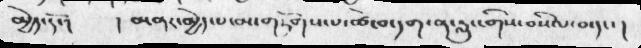མྱེད་དོ་།       ། མནར་མྱེད་པ་མ་གཏོགས་པ་ཚེ་བ་དག་ན་རླུང་གིས་བསིལ་བ་དང་ །
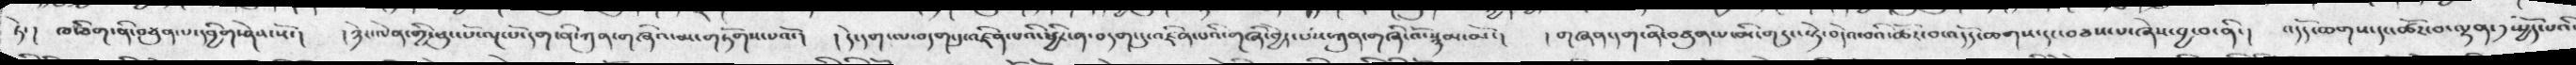ཏེ་། ཁ་ཅིག་ནི་བཙུན་པ་དབྱིག་ཤེས་སོ་།   །ཉེར་ལེན་གྱི་ཕུང་པོ་ལྔ་པོ་དག་ནི་ཀུན་མ་གཏོགས་པའོ་།  ། དེ་དག་ལ་བདག་དུ་འཛིན་པའི་ཕྱིར་ན་བདག་དུ་འཛིན་པའི་གཞི་བྱེད་པས་ཀུན་གཞི་འོ་སྙམ་མོ་།    ། གཞན་དག་ནི་བཙུན་པ་མི་གདུང་སྟེ་བདེའ་བའི་ཚོར་བ་འདོད་ཆགས་དང་བཅས་པ་ཞེས་བྱ་བ་ནི་།    འདོད་ཆགས་དང་ཚོར་བ་ལྷན་དུ་སྤྱོད་པའི་
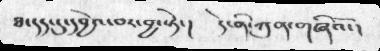ཐ་དད་དུ་དབྱེའ་བར་བྱ་སྟེ་།   དེ་ནི་ཀུན་གཞིའོ་།
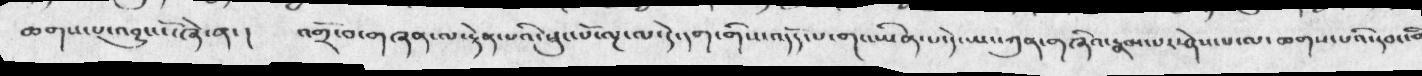ཆགས་པ་འབྱུང་ངོ་ཞེ་ན་ །     འགྲོ་བ་གཞན་ལ་རྟེན་པའི་ཕུང་པོ་ལྔ་ལ་དེ་དག་གིས་འདོད་པ་གང་ཡིན་པ་དེ་ཡང་ཀུན་གཞིའ་རྣམ་པར་ཤེས་པ་ལ་ཆགས་པའི་དབང་གི
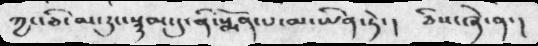ཀྱང་ཅི་མ་རུང་སྙམ་དུ་ན་སྨོན་པ་མ་ཡིན་ཏེ་།   ཅིས་ཞེ་ན་།
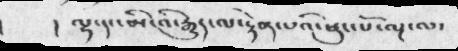།     །  ལྷ་དང་མི་འི་རྒྱུད་ལ་རྟེན་པའི་ཕུང་པོ་ལྔ་ལ་
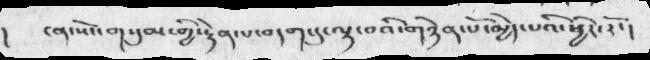།    ངན་སོང་གསུམ་གྱི་རྟེན་པ་བདག་དུ་ལྟ་བའི་གཉེན་པོ་མྱེད་པའི་ཕྱིར་རོ་།
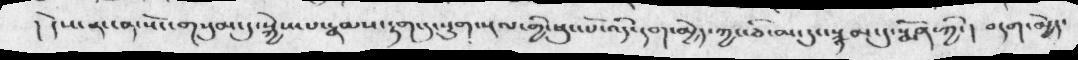། དེས་ན་ངན་སོང་གསུམ་དུ་སྐྱེས་པ་རྣམས་རྟག་དུ་སྡུག་སྔལ་གྱི་ཕུང་པོ་འདི་དག་མྱེད་ཀྱང་ཅི་མ་རུང་སྙམ་དུ་སྨོན་ཀྱི་།   བདག་མྱེད་
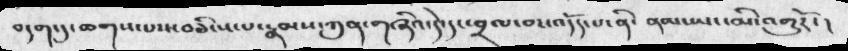བདག་དུ་ཆགས་པས་བཅིངས་པ་རྣམས་ཀུན་གཞིའ་དེ་དང་བྲལ་བར་འདོད་པ་ནི་ ནམ་ཡང་མི་འགྱུརོ་།
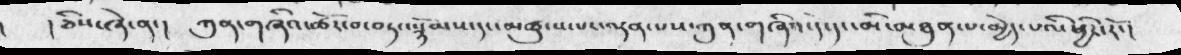།   ཅིས་ཞེ་ན་།  ཀུན་གཞིའ་ཚོར་བ་བཏང་སྙོམས་དང་མཚུངས་པར་ལྡན་པས་ཀུན་གཞིའ་དེ་དང་མི་མཐུན་པ་མྱེད་པའི་ཕྱིར་རོ་།
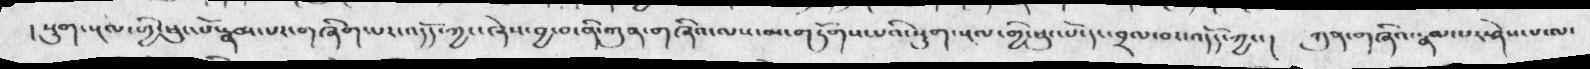། སྡུག་སྔལ་གྱི་ཕུང་པོ་རྣམ་པར་གཞིག་པར་འདོད་ཀྱང་ཞེས་བྱ་བ་ནི་ཀུན་གཞིའ་ལས་མ་གཏོགས་པའི་སྡུག་སྔལ་གྱི་ཕུང་པོ་དང་བྲལ་བར་འདོད་ཀྱང་།   ཀུན་གཞིའ་རྣམ་པར་ཤེས་པ་ལ་
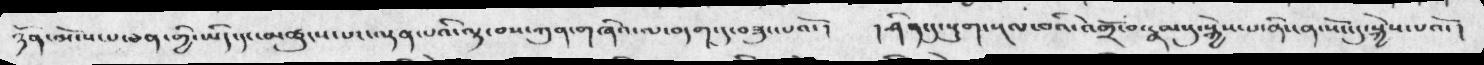ཉོན་མོངས་པ་ཅན་གྱི་ཡིད་དང་མཚུངས་པར་ལྡན་པའི་ལྟ་བས་ཀུན་གཞིའ་ལ་བདག་དུ་བཟུང་པའོ་།   །ཤིན་དུ་སྡུག་སྔལ་བའི་འགྲོ་བ་རྣམསུ་སྐྱེས་པ་ནི་ངན་སོང་དུ་སྐྱེས་པའོ་།
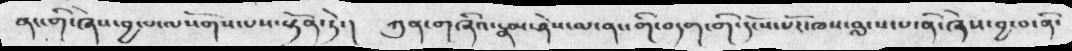ནང་གི་ཞེས་བྱ་བ་ལསོགས་པས་སྟོན་ཏེ་ །    ཀུན་གཞིའ་རྣམ་ཤེས་ལ་ནང་གི་བདག་གི་དངོས་པོར་ཁས་བླངས་པ་ནི་ཞེས་བྱ་བ་ནི་
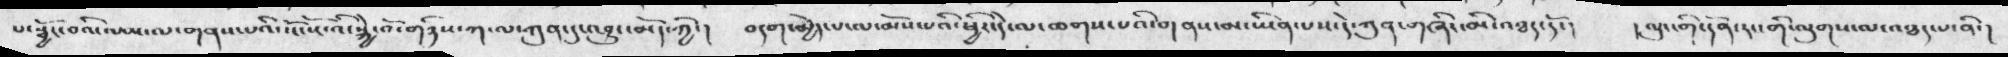ས་སྦྱོང་བའི་ལམ་ལ་གནས་པའི་སོ་སོ་འི་སྐྱེ་བོ་གཉིས་ཀ་ལ་ཀུན་དུ་འབྱུང་མོད་ཀྱི་།   བདག་མྱེད་པ་ལ་མོས་པའི་ཕྱིར་དེ་ལ་ཆགས་པའི་གནས་མ་ཡིན་པས་དེ་ཀུན་གཞི་འཐད་དོ་།   ། ལུང་གི་དོན་རང་གི་ལུགས་ལ་འཐད་པ་ནི་།
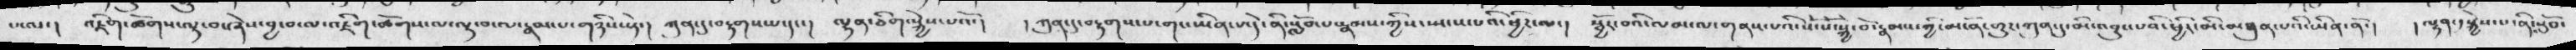་སལ་།  འཇིག་ཚོགས་ལྟ་བ་ཞེས་བྱ་བ་ལ་འཇིག་ཚོགས་ལ་ལྟ་བ་ལ་རྣམ་པ་གཉིས་སྟེ་།   ཀུན་དུ་བརྟགས་པ་དང་།   ལྷན་ཅིག་སྐྱེས་པའོ་།   ། ཀུན་དུ་བརྟགས་པ་གང་ཡིན་པ་དེ་ནི་སློབ་པ་རྣམས་ཀྱིས་སྤངས་པའི་ཕྱིར་ལ་།   སྦྱོར་བའི་ལམ་ལ་གནས་པའི་སོ་སོ་སྐྱེ་བོ་རྣམས་གྱི་མངོན་གྱུར་ཀུན་དུ་མི་འབྱུང་པའི་ཕྱིར་མི་མཐུན་པའི་ཡིན་ནོ་།  ། ལྷན་༡སྐྱེས་པ་ནི་སློབ་
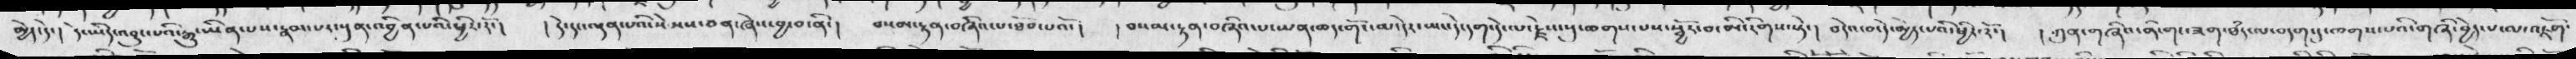མྱེད་དེ་།   དེ་ཡིད་འབྱུང་པའི་རྒྱུ་ཡིན་པས་རྣམ་པར་སུན་འབྱིན་པའི་ཕྱིར་རོ་།   ། དེ་དང་ལྡན་པའི་སེམས་ཅན་ཞེས་བྱ་བ་ནི་།    བསམ་རྟན་བཞིའ་ཐོབ་པའོ་།  ། བསམ་རྟན་བཞིའ་པ་ཡན་ཆད་གོང་མ་དེར་ཡང་དེ་དགད་དེ་ལ་རྗེས་སུ་ཆགས་པས་སྦྱོར་བ་མི་རིགས་སྟེ་།   བདེ་བ་དེ་མྱེད་པའི་ཕྱིར་རོ་།   ། ཀུན་གཞིའ་ནི་གང་ཟག་ཐཾད་ལ་བདག་དུ་ཁགས་པའི་གཞི་བྱེད་པ་ལ་འཇོག་
